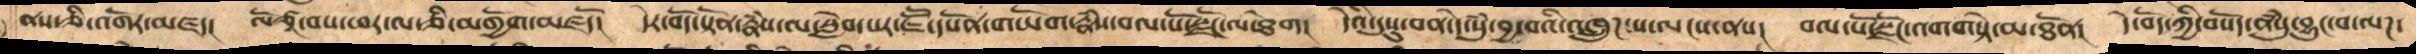ནས་ཅི་འགོར་མཛད། ལོཙཱ་བས་ཕར་ལ་ཅི་མགྱོག་མཛདོ།   དེར་བོད་སྟོན་རྣཾས་མ་སླེབ་པར་ཇཽ་དཔོན་གཡོག་རྣཾས་བལ་པོའི་སྫོང་ལ་ཐེག།   དེའི་དུསུ་བན་དེ་སུཾ་བྱ་བའི་འཁྲུཌ་པ་ལངས་ནས།   བལ་པོ་སྫོང་འགགསྟེ་མ་ཐོན།   དེ་བོད་ཀྱི་བསོད་ནཾསུ་བྱུང་བ་ལཌ་
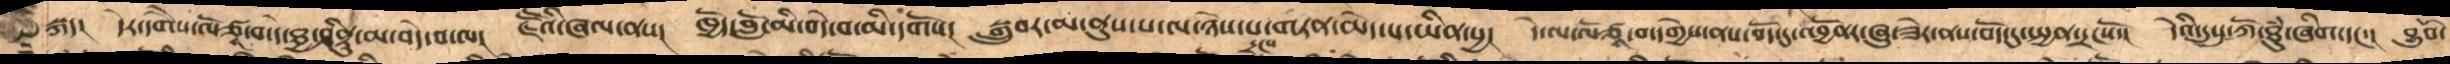སྐད། དེར་དགཻས་ལོཙཱ་བ་དེ་ཐྱ་ཤིནྟུ་མ་བདེ་བ་ལ།   ཇཽའི་ཞལ་ནས།   ཁྱོད་བློ་མ་བདེ་བ་མི་དགོས།   སྒྲུབར་མ་ནུས་པ་ལ་ཉེས་པ་གཏན་མེད་པ་ཡིན་སྱ།   དེ་ལ་ལོཙཱ་བ་དགྱེས་ནས་བོད་དུ་འབྱོནར་ཞུ་ཟེར་ནས་བོད་དུ་སྤྱན་དྲངསོ་།   དེའི་དུསུ་ཀོ་ཐུཾ་ཞིག་དང་ང   བྱུབོ་
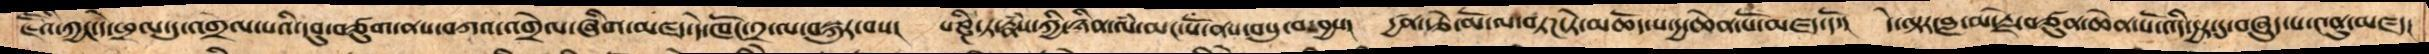ཇཽའ་ཀྱང་དེ་ཕྲལ་དུ་འགྲེལ་པའི་དབུ་བཙུག་ནས་བཀའ་འགྲེལ་ཞིག་མཛད་དེ་ཁོང་༢་ལ་བསྐུར་བས།   པཎྜི་ཏ་རྣཾས་ཀྱི་ཉིན་ལཾ་མང་པོ་ནས་བསུ་བ་བྱས།  དྱཚན་རྩེ་མོ་ལ་བཏཌ་ཏེ་མཆོད་པ་དྱ་ཆེན་པོ་མཛད་དོ།   དེ་ལྟར་བླ་མ་རྗེ་བཙུན་ཆེན་པོ་འདི་དྱར་དུ་བཞུད་པ་༤ནུ་མཛད།
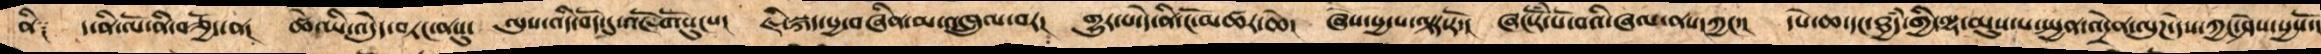ནི༑   ད་ནི་ལོ་ནི་བཅྱོད་ན།   ཚེ་ཡི་འདེུད་བཏང་ནསུ་   ལུས་འདི་བོད་དུ་འཇོགོསུངས།  ཇི་སྐད་སྱ་བཞིན་མ་འཁྲུལ་བར།   གྱུར་པ་དེ་ནི་ངོ་མཚར་ཆེ།  ཞེས་སྱ་པ་ལྟརོ་།   ཞང་རོཾ་པོ་བའི་ཞལ་ནས་ཀྱ་།   དཔེ་ཆ་དང་ཐྱཾད་གྱི་ལྷ་མུས་པ་སྤྱན་འདྲེན་ལུཌ་དེས་ཀྱང་ཤེས་སྱསོ་
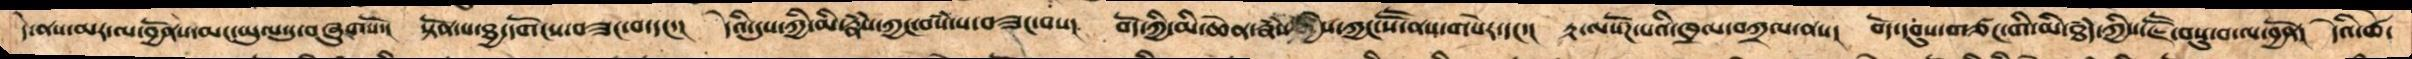དེ་ནས་མར་ལ་བྱོནས་མང་ཡུལ་དུ་བཞུགསོ་།  སྟོན་པ་ཐྱ་དགོངས་བཟང་བ་དང་།   དེའི་དུས་ཀྱི་མི་རྣཾས་ཀྱང་བསཾ་པ་བཟང་བས།   བོད་ཀྱི་མི་ཆེན་རྣཾས་ཀྱིས་ཀྱང་སཽ་ནས་གསེར་དང་།   རྟ་ལསོཌ་པའི་ཁྲལ་བཀྲལ་ནས།   བོད་དབུས་གཙང་གི་མི་ཐཾད་ཀྱིས་ཇཽ་བསུ་བ་ལ་བྱོན། དེའི་ཚེ་
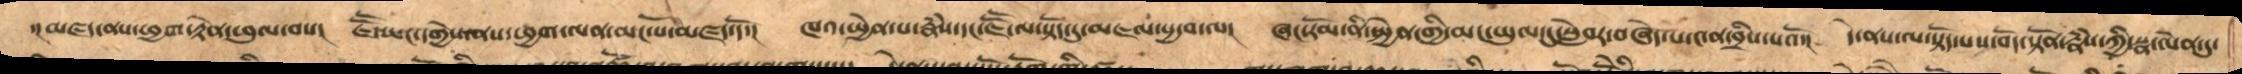་།མཛད་ནས་ཕྱག་རྟེན་ཕུལ་བས།  ཇཽ་ཡང་དགྱེས་ནས་ཕྱག་ལན་མང་པོ་མཛད་དོ་།   ཁའ་སྤྱེན་པ་རྣཾས་དང་ཇཽ་ལ་སྟོད་དུ་མཇལ་སྱ་བ་ལ།    ཞང་རོམ་ནི་སྤྱེནགྱི་མང་ཡུལ་དུ་སླེབར་བཞེད་པ་༤ན་བྲིས་པའོ་།    དེ་ནས་ལ་སྟོད་པས་བོད་སྟོན་རྣཾས་ཀྱི་སྣ་ལེན་དུ་
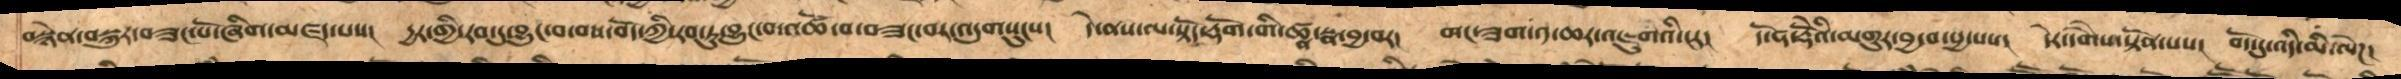བསྙེན་བསྐུར་བཟང་པོ་ཞིག་མཛད་པས།  དྱར་གྱི་རབ་ཏུ་བྱུང་བ་བས་བོད་ཀྱི་རབ་ཏུ་བྱུང་བ་འཚོ་བ་བཟང་བར་འདུགསུངས།  དེ་ནས་ལ་སྟོད་རྡོག་གི་ཚཱ་སྣ་བྱ་བར།  གང་ཟག་༡་ཆར་འཇུགའི་ངར།  དོ་ཧ་རྡོེའི་མགུར་བྱ་བ་སྱ་པས། དེར་དགཻས་སྟོན་པས།  བོད་དུ་འདི་མི་ལེཌ།
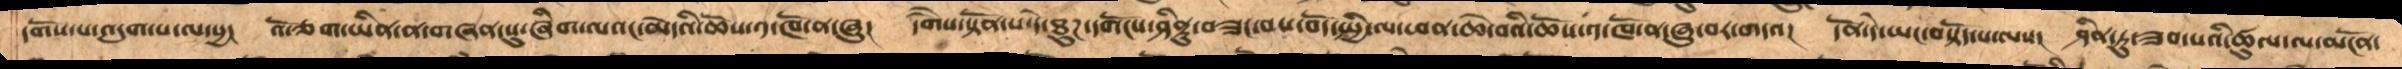དགོས་པ་འདུག་པ་ལ་སྱ།   འོ་ཅག་ཡིན་ན་གཞན་སུ་ཞིག་ལའང་མེདའི་ཆོས་༡་ཁོ་ན་ཞུ།    དགཻས་སྟོན་པ་དེ་ཐུཌ་དགོངས་ཤིནྟུ་བཟང་བས་བོད་སྤྱི་ལ་ཕན་ཆེ་བའི་ཆོས་༡་ཁོ་ན་ཞུ་བར་གདའ།   དོན་དེ་ཡང་བསྟོད་པ་ལས།    ཤིན་ཏུ་ཟབ་པའི་ཚུལ་ལ་མངོན་
